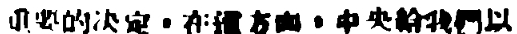重要的決定，在這方面，中央給我們以
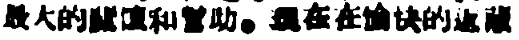最大的關懷和幫助。現在在愉快的返藏
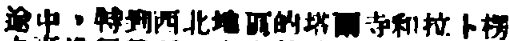途中，特到西北地區的塔爾寺和拉卜楞
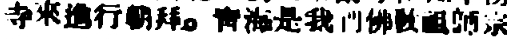寺來進行朝拜。靑海是我們佛敎祖師宗
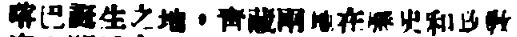喀巴誕生之地，靑藏兩地在歷史和政敎
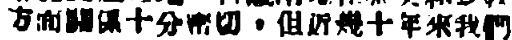方面關係十分密切，但近幾十年來我們
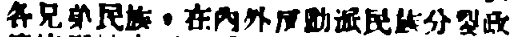各兄弟民族，在內外反動派民族分裂政
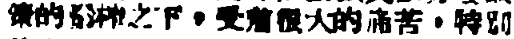策的壓榨之下，受着很大的痛苦，特別
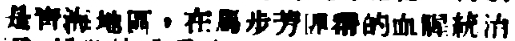是靑海地區，在馬步芳匪帮的血腥統治
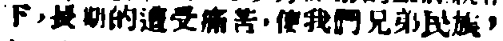下，長期的遭受痛苦，使我們兄弟民族，
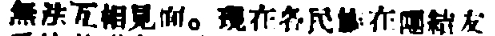無法互相見面。現在各民族在團結友
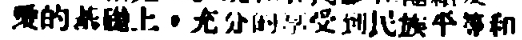愛的基礎上，充分的享受到民族平等和
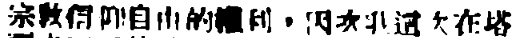宗敎信仰自由的權利，因次我這次在塔
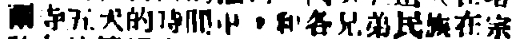爾寺五天的時間中，和各兄弟民族在宗
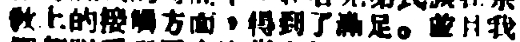敎上的接觸方面，得到了滿足。並且我
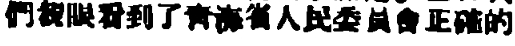們親眼看到了靑海省人民委員會正確的
